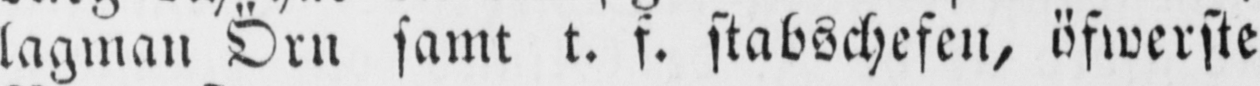lagman Örn samt t. f. stabschefen, öfwerste
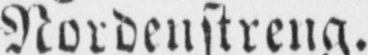Nordenstreng.
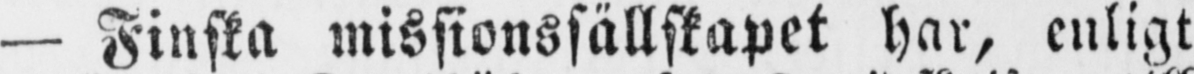— Finska missionssällskapet har, enligt
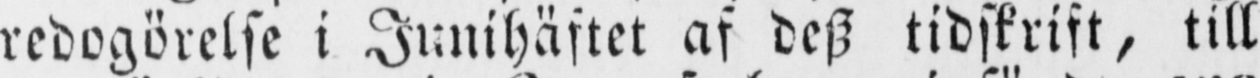redogörelse i Junihäftet af desz tidskrift, till
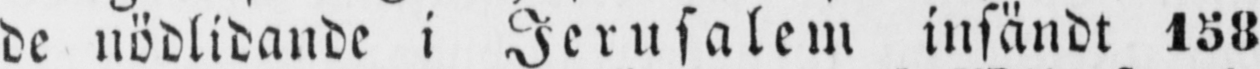de nödlidande i Jerusalem insändt 158
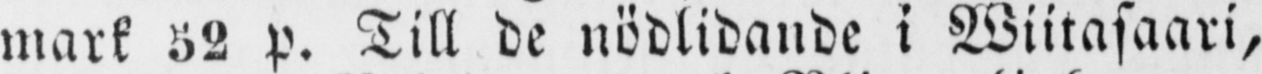mark 52 p. Till de nödlidande i Wiitasaari,
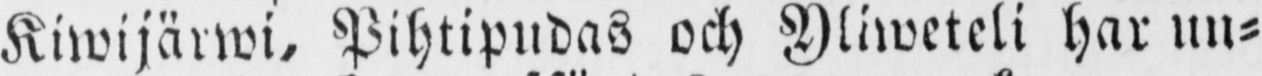Kiwijärwi, Pihtipudas och Yliweteli har un-
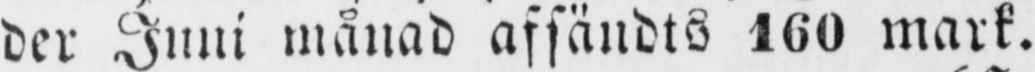der Juni månad afsändts 160 mark.
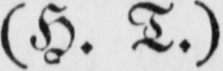(H. T.)
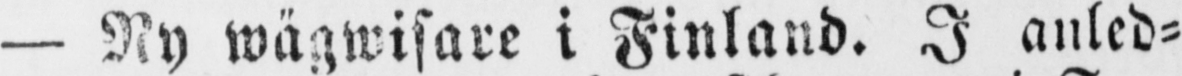— Ny wägwisare i Finland. I anled-
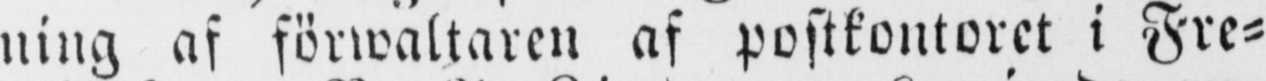ning af förwaltaren af postkontoret i Fre-
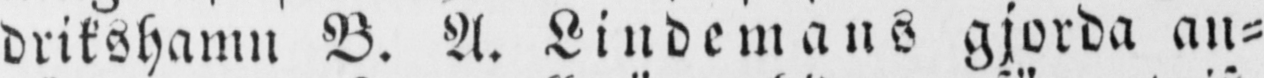drikshamn B. A. Lindemans gjorda an-
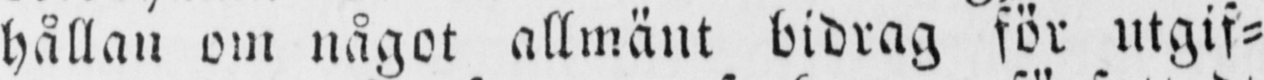hållan om något allmänt bidrag för utgif-
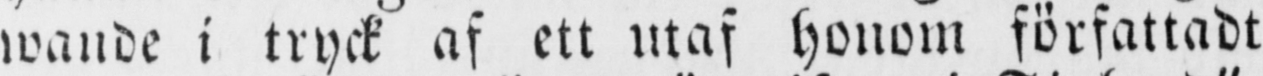wande i tryck af ett utaf honom författadt
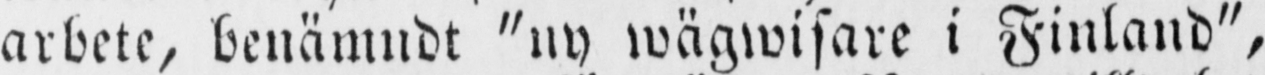arbete, benämndt "ny wägwisare i Finland",
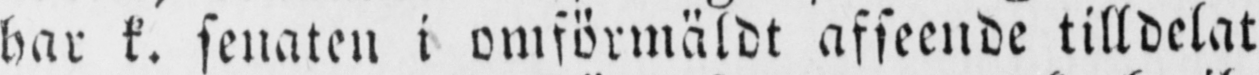har k. senaten i omförmäldt afseende tilldelat
